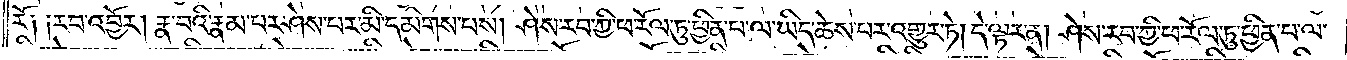རོ༑ ༑རབ་འབྱོར། རྣ་བའི་རྣམ་པར་ཤེས་པར་མི་དམིགས་པས། ཤེས་རབ་ཀྱི་ཕ་རོལ་ཏུ་ཕྱིན་པ་ལ་ཡིད་ཆེས་པར་འགྱུར་ཏེ། དེ་ལྟར་ན། ཤེས་རབ་ཀྱི་ཕ་རོལ་ཏུ་ཕྱིན་པ་ལ་
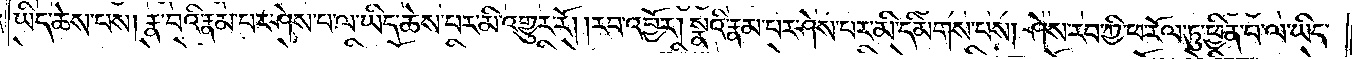ཡིད་ཆེས་བས། རྣ་བའི་རྣམ་པར་ཤེས་པ་ལ་ཡིད་ཆེས་པར་མི་འགྱུར་རོ། །རབ་འབྱོར། སྣའི་རྣམ་པར་ཤེས་པར་མི་དམིགས་པས། ཤེས་རབ་ཀྱི་ཕ་རོལ་ཏུ་ཕྱིན་པ་ལ་ཡིད་
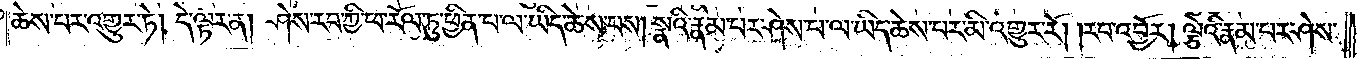ཆེས་པར་འགྱུར་ཏེ། དེ་ལྟར་ན། ཤེས་རབ་ཀྱི་ཕ་རོལ་ཏུ་ཕྱིན་པ་ལ་ཡིད་ཆེས་པས། སྣའི་རྣམ་པར་ཤེས་པ་ལ་ཡིད་ཆེས་པར་མི་འགྱུར་རོ། །རབ་འབྱོར། ལྕེའི་རྣམ་པར་ཤེས་
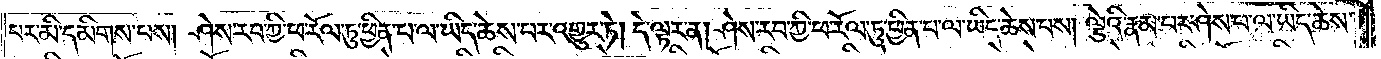པར་མི་དམིགས་པས། ཤེས་རབ་ཀྱི་ཕ་རོལ་ཏུ་ཕྱིན་པ་ལ་ཡིད་ཆེས་པར་འགྱུར་ཏེ། དེ་ལྟར་ན། ཤེས་རབ་ཀྱི་ཕ་རོལ་ཏུ་ཕྱིན་པ་ལ་ཡིད་ཆེས་པས། ལྕེའི་རྣམ་པར་ཤེས་པ་ལ་ཡིད་ཆེས་
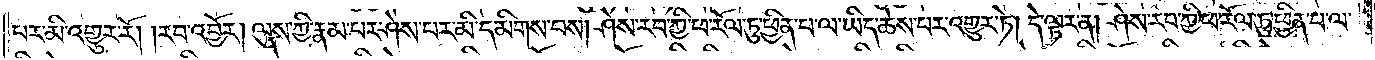པར་མི་འགྱུར་རོ། །རབ་འབྱོར། ལུས་ཀྱི་རྣམ་པར་ཤེས་པར་མི་དམིགས་པས། ཤེས་རབ་ཀྱི་ཕ་རོལ་ཏུ་ཕྱིན་པ་ལ་ཡིད་ཆེས་པར་འགྱུར་ཏེ། དེ་ལྟར་ན། ཤེས་རབ་ཀྱི་ཕ་རོལ་ཏུ་ཕྱིན་པ་ལ་
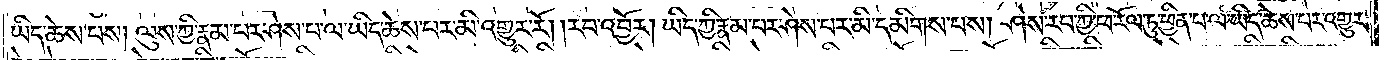ཡིད་ཆེས་པས། ལུས་ཀྱི་རྣམ་པར་ཤེས་པ་ལ་ཡིད་ཆེས་པར་མི་འགྱུར་རོ། །རབ་འབྱོར། ཡིད་ཀྱི་རྣམ་པར་ཤེས་པར་མི་དམིགས་པས། ཤེས་རབ་ཀྱི་ཕ་རོལ་ཏུ་ཕྱིན་པ་ལ་ཡིད་ཆེས་པར་འགྱུར་
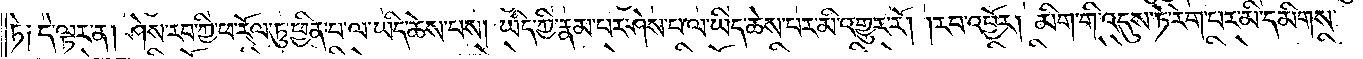ཏེ༑ དེ་ལྟར་ན། ཤེས་རབ་ཀྱི་ཕ་རོལ་ཏུ་ཕྱིན་པ་ལ་ཡིད་ཆེས་པས། ཡིད་ཀྱི་རྣམ་པར་ཤེས་པ་ལ་ཡིད་ཆེས་པར་མི་འགྱུར་རོ། །རབ་འབྱོར། མིག་གི་འདུས་ཏེ་རེག་པར་མི་དམིགས་
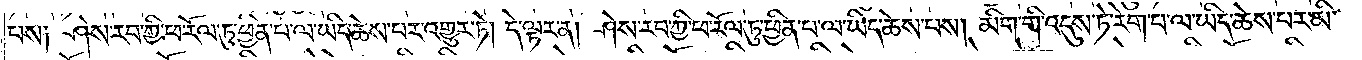པས༑ ཤེས་རབ་ཀྱི་ཕ་རོལ་ཏུ་ཕྱིན་པ་ལ་ཡིད་ཆེས་པར་འགྱུར་ཏེ། དེ་ལྟར་ན། ཤེས་རབ་ཀྱི་ཕ་རོལ་ཏུ་ཕྱིན་པ་ལ་ཡིད་ཆེས་པས། མིག་གེ་འདུས་ཏེ་རེག་པ་ལ་ཡིད་ཆེས་པར་མི་
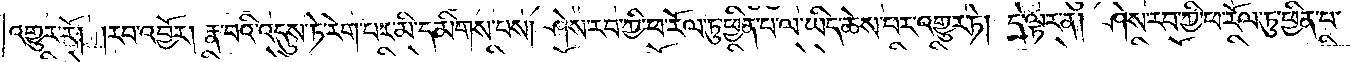འགྱུར་རོ། །རབ་འབྱོར། རྣ་བའི་འདུས་ཏེ་རེག་པར་མི་དམིགས་པས། ཤེས་རབ་ཀྱི་ཕ་རོལ་ཏུ་ཕྱིན་པ་ལ་ཡིད་ཆེས་པར་འགྱུར་ཏེ། དེ་ལྟར་ན། ཤེས་རབ་ཀྱི་ཕ་རོལ་ཏུ་ཕྱིན་པ་
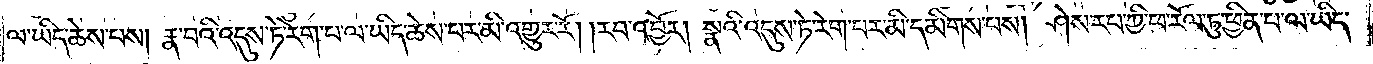ལ་ཡིད་ཆེས་པས། རྣ་བའི་འདུས་ཏེ་རེག་པ་ལ་ཡིད་ཆེས་པར་མི་འགྱུར་རོ། །རབ་འབྱོར། སྣའི་འདུས་ཏེ་རེག་པར་མི་དམིགས་པས། ཤེས་རབ་ཀྱི་ཕ་རོལ་ཏུ་ཕྱིན་པ་ལ་ཡིད་
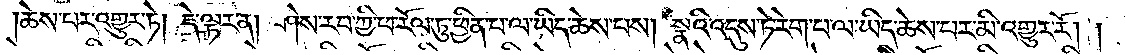ཆེས་པར་འགྱུར་ཏེ། དེ་ལྟར་ན། ཤེས་རབ་ཀྱི་ཕ་རོལ་ཏུ་ཕྱིན་པ་ལ་ཡིད་ཆེས་པས། སྣའི་འདུས་ཏེ་རིག་པ་ལ་ཡིད་ཆེས་པར་མི་འགྱུར་རོ། །
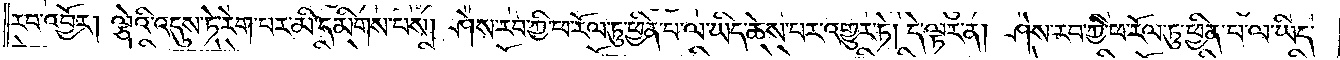རབ་འབྱོར། ལྕེའི་འདུས་ཏེ་རེག་པར་མི་དམིགས་པས། ཤེས་རབ་ཀྱི་ཕ་རོལ་ཏུ་ཕྱིན་པ་ལ་ཡིད་ཆེས་པར་འགྱུར་ཏེ། དེ་ལྟར་ན། ཤེས་རབ་ཀྱི་ཕ་རོལ་ཏུ་ཕྱིན་པ་ལ་ཡིད་
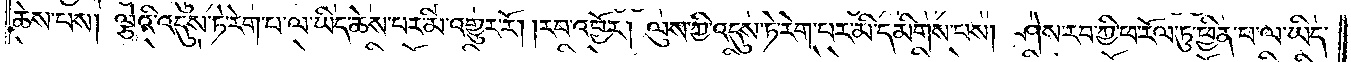ཆེས་པས། ལྕེའི་འདུས་ཏེ་རེག་པ་ལ་ཡིད་ཆེས་པར་མི་འགྱུར་རོ། །རབ་འབྱོར། ལུས་ཀྱི་འདུས་ཏེ་རེག་པར་མི་དམིགས་པས། ཤེས་རབ་ཀྱི་ཕ་རོལ་ཏུ་ཕྱིན་པ་ལ་ཡིད་
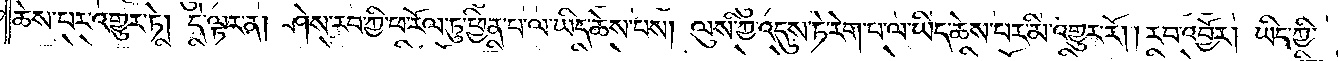ཆེས་པར་འགྱུར་ཏེ། དེ་ལྟར་ན། ཤེས་རབ་ཀྱི་ཕ་རོལ་ཏུ་ཕྱིན་པ་ལ་ཡིད་ཆེས་པས། ལུས་ཀྱི་འདུས་ཏེ་རེག་པ་ལ་ཡིད་ཆེས་པར་མི་འགྱུར་རོ། །རབ་འབྱོར། ཡིད་ཀྱི་
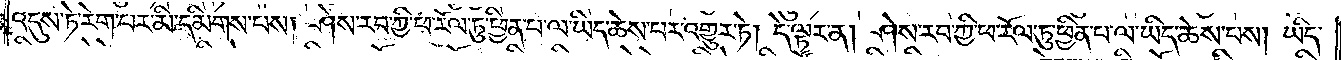འདུས་ཏེ་རེག་པར་མི་དམིགས་པས། ཤེས་རབ་ཀྱི་ཕ་རོལ་ཏུ་ཕྱིན་པ་ལ་ཡིད་ཆེས་པར་འགྱུར་ཏེ། དེ་ལྟར་ན། ཤེས་རབ་ཀྱི་ཕ་རོལ་ཏུ་ཕྱིན་པ་ལ་ཡིད་ཆེས་པས། ཡིད་
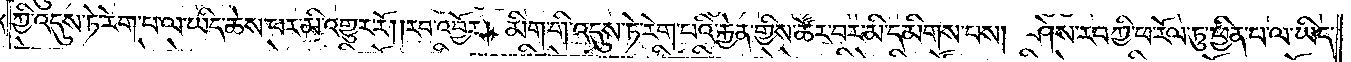ཀྱི་འདུས་ཏེ་རེག་པ་ལ་ཡིད་ཆེས་པར་མི་འགྱུར་རོ། །རབ་འབྱོར། མིག་གི་འདུས་ཏེ་རེག་པའི་རྐྱེན་གྱིས་ཚོར་བར་མི་དམིགས་པས། ཤེས་རབ་ཀྱི་ཕ་རོལ་ཏུ་ཕྱིན་པ་ལ་ཡིད་
